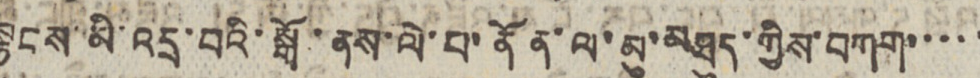སྟངས་མི་འདྲ་བའི་སྒོ་ནས་ལེ་པ་ནོན་ལ་མུ་མཐུད་ཀྱིས་བཀག་་་་་
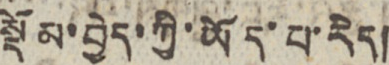སྡོམ་བྱེད་ཀྱི་ཡོད་པ་རེད།
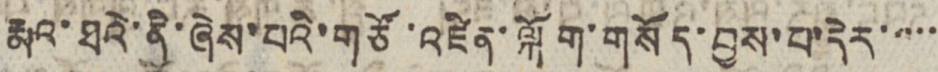རྨའ་ཐའེ་ནི་ཞེས་པའི་གཙོ་འཛིན་ལྐོག་གསོད་བྱས་པ་དེར་་་་་
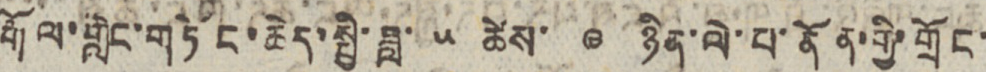རྒོལ་གླེང་གཏོང་ཆེད་སྤྱི་ཟླ་ ༥ ཚེས་ ༩ ཉིན་ལེ་པ་ནོན་གྱི་གྲོང་
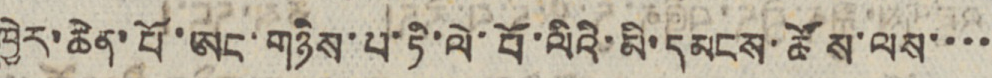ཁྱེར་ཆེན་པོ་ཨང་གཉིས་པ་ཏི་ལེ་པོ་ལིའི་མི་དམངས་ཚོས་ལས་་་་
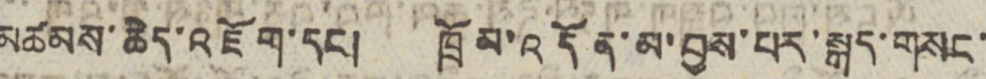མཚམས་ཆེད་འཇོག་དང། ཁྲོམ་འདོན་མ་བྱས་པར་སྐད་གསང་
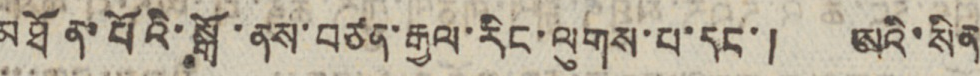མཐོན་པོའི་སྒོ་ནས་བཙན་རྒྱལ་རིང་ལུགས་པ་དང་། ཨའི་སིན་
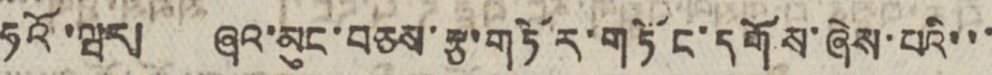ཧའོ་ཝར། ཞའ་མུང་བཅས་རྩ་གཏོར་གཏོང་དགོས་ཞེས་པའི་་་
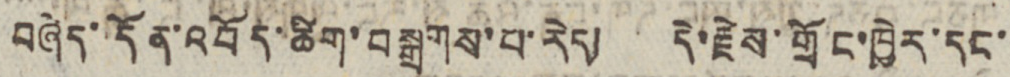བཞེད་དོན་འབོད་ཚིག་བསྒྲགས་པ་རེད། དེ་རྗེས་གྲོང་ཁྱེར་དང་
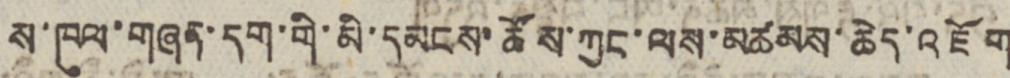ས་ཁུལ་གཞན་དག་གི་མི་དམངས་ཚོས་ཀྱང་ལས་མཚམས་ཆེད་འཇོག
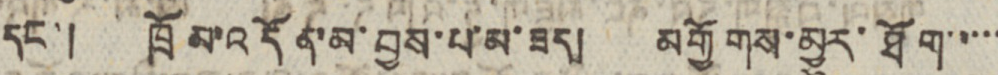དང་། ཁྲོམ་འདོན་མ་བྱས་པ་མ་ཟད། མགྱོགས་མྱུར་ཐོག་་་་་
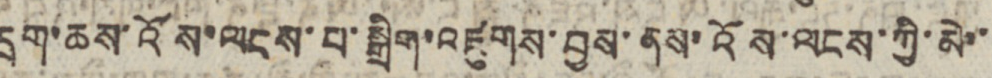དྲག་ཆས་འོས་ལངས་པ་སྒྲིག་འཛུགས་བྱས་ནས་འོས་ལངས་ཀྱི་མེ་་
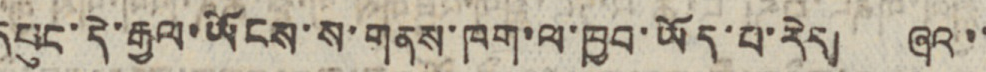དཔུང་དེ་རྒྱལ་ཡོངས་ས་གནས་ཁག་ལ་ཁྱབ་ཡོད་པ་རེད། ཞའ་་
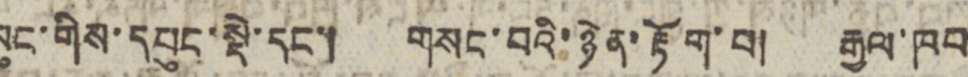མུང་གིས་དཔུང་སྡེ་དང་། གསང་བའི་ཉེན་རྟོག་བ། རྒྱལ་ཁབ་
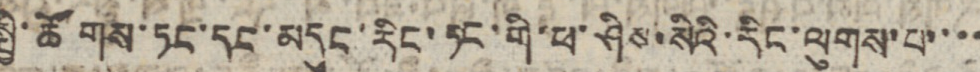སྤྱི་ཚོགས་ཏང་དང་མདུང་རིང་ཏང་གི་ཕ་ཤིས་སིའི་རིང་ལུགས་པ་་་་
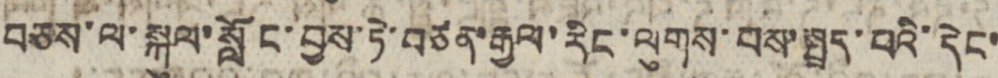བཅས་ལ་སྐུལ་སློང་བྱས་ཏེ་བཙན་རྒྱལ་རིང་ལུགས་པས་སྤྲད་པའི་དེང་
